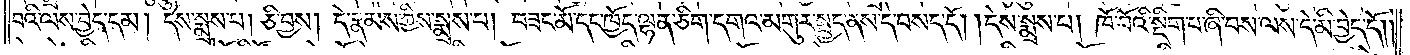བའི་ལས་བྱེད་དམ། དེས་སྨྲས་པ། ཅི་བྱས། དེ་རྣམས་ཀྱིས་སྨྲས་པ། བཟང་མོ་དང་ཁྱོད་ལྷན་ཅིག་དགའ་མགུར་སྤྱད་ནས་དེ་བསད་དོ། །དེས་སྨྲས་པ། ཁོ་བོའི་སྡིག་པ་ཞི་བས་ལས་དེ་མི་བྱེད་དོ། །
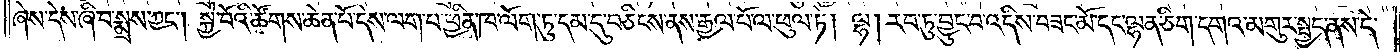ཞེས་དེས་ཞི་བ་སྨྲས་ཀྱང༌། སྐྱེ་བོའི་ཚོགས་ཆེན་པོ་དེས་ལག་པ་ཕྱིན་ཁ་ལོག་ཏུ་དམ་དུ་བཅིངས་ནས་རྒྱལ་པོ་ལ་ཕུལ་ཏེ། ལྷ། རབ་ཏུ་བྱུང་བ་འདིས་བཟང་མོ་དང་ལྷན་ཅིག་དགའ་མགུར་སྤྱད་ནས་དེ་
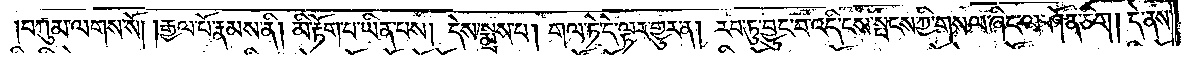བཀུམ་ལགས་སོ། །རྒྱལ་པོ་རྣམས་ནི། མི་རྟོག་པ་ཡིན་པས། དེས་སྨྲས་པ། གལ་ཏེ་དེ་ལྟར་གྱུར་ན། རབ་ཏུ་བྱུང་བ་འདི་ངས་སྤངས་ཀྱི་གསལ་ཞིང་ལ་ཤོན་ཅིག། དེ་ནས་
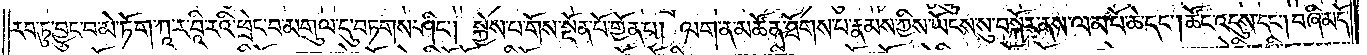རབ་ཏུ་བྱུང་བ་མེ་ཏོག་ཀཱ་ར་བཱི་རའི་ཕྲེང་བ་མགུལ་དུ་བཏགས་ཤིང༌། སྐྱེས་པ་གོས་སྔོན་པོ་གྱོན་པ། ལག་ན་མཚོན་ཐོགས་པ་རྣམས་ཀྱིས་ཡོངས་སུ་བསྐོར་ནས་ལམ་པོ་ཆེ་དང༌། ཚོང་འདུས་དང༌། བཞི་མདོ་
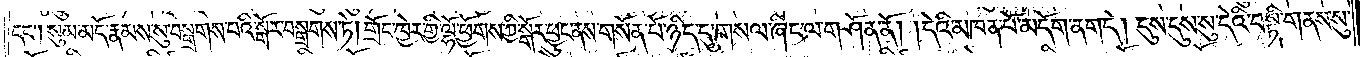དང༌། སུམ་མདོ་རྣམས་སུ་བསྒྲགས་པའི་སྒོར་བསྒྲགས་ཏེ། གྲོང་ཁྱེར་གྱི་ལྷོ་ཕྱོགས་ཀྱི་སྒོར་ཕྱུང་ནས་གསོན་པོ་ཉིད་དུ་གསལ་ཞིང་ལ་གཤོན་ནོ། །དེའི་མཁན་པོ་མདོག་ནག་དེ། དུས་དུས་སུ་དེའི་བསྟི་གནས་སུ་
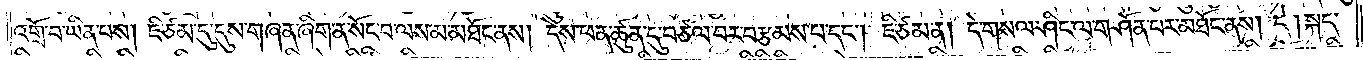འགྲོ་བ་ཡིན་པས། ཇི་ཙམ་དུ་དུས་གཞན་ཞིག་ན་སོང་བ་ལས་མ་མཐོང་ནས། དེས་ཕན་ཚུན་དུ་བཙལ་བར་བརྩམས་པ་དང༌། ཇི་ཙམ་ན། དེ་གསལ་ཞིང་ལ་གཤོན་པར་མཐོང་ནས། དེ། སྐད་
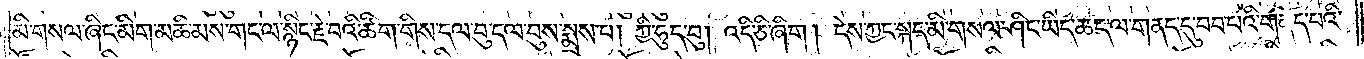མི་གསལ་ཞིང་མིག་མཆི་མས་གང་ལ་སྙིང་རྗེ་བའི་ཚིག་གིས་དལ་བུ་དལ་བུས་སྨྲས་པ། ཀྱི་ཧུད་བུ། འདི་ཅི་ཞིག། དེས་ཀྱང་སྐད་མི་གསལ་ཞིང་ཡིད་ཆད་ལ་གནད་དུ་བབ་པའི་གནོད་པའི་
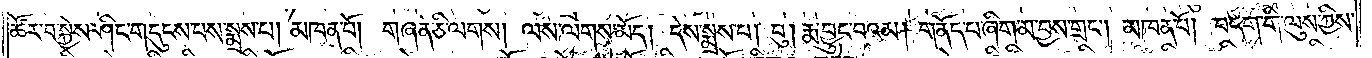ཚོར་བ་སྐྱེས་ཤིང་གདུངས་པས་སྨྲས་པ། མཁན་པོ། གཞན་ཅི་ལགས། ལས་ལགས་མོད། དེས་སྨྲས་པ། བུ། རྨ་བྱུང་བའམ། གནོད་པ་ཞིག་མ་བྱས་གྲང༌། མཁན་པོ། བདག་གི་ལུས་ཀྱིས་
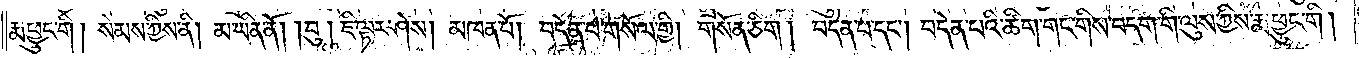རྨ་ཕྱུང་གི། སེམས་ཀྱིས་ནི། མ་ཡིན་ནོ། །བུ། ཇི་ལྟར་ཤེས། མཁན་པོ། བདེན་པ་གསོལ་གྱི། གསོན་ཅིག །བདེན་པ་དང༌། བདེན་པའི་ཚིག་གང་གིས་བདག་གི་ལུས་ཀྱིས་རྨ་ཕྱུང་གི།
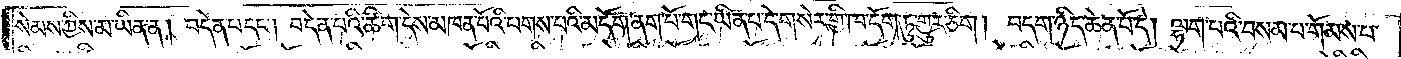སེམས་ཀྱིས་མ་ཡིན་ན། བདེན་པ་དང༌། བདེན་པའི་ཚིག་དེས་མཁན་པོའི་པགས་པའི་མདོག་ནག་པོ་གང་ཡིན་པ་དེ་གསེར་གྱི་ཁ་དོག་ཏུ་གྱུར་ཅིག །བདག་ཉིད་ཆེན་པོ་དེ། ལྷག་པའི་བསམ་པ་གོམས་པ་
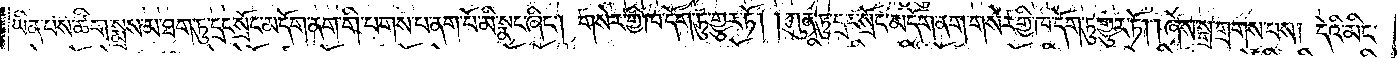ཡིན་པས་ཚིག་སྨྲས་མ་ཐག་ཏུ་དྲང་སྲོང་མདོག་ནག་གི་པགས་པ་ནག་པོ་མི་སྣང་ཞིང༌། གསེར་གྱི་ཁ་དོག་ཏུ་གྱུར་ཏོ། །ཀུན་ཏུ་དྲང་སྲོང་མདོག་ནག་གསེར་གྱི་ཁ་དོག་ཏུ་གྱུར་ཏོ། །ཞེས་སྒྲ་གྲགས་པས། དེའི་མིང་
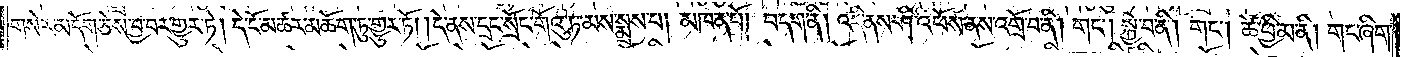གསེར་མདོག་ཅེས་བྱ་བར་གྱུར་ཏོ། །དེ་ངོ་མཚར་མཆོག་ཏུ་གྱུར་ཏོ། །དེ་ནས་དྲང་སྲོང་གོའུ་ཏ་མས་སྨྲས་པ། མཁན་པོ། བདག་ནི། འདི་ནས་ཤི་འཕོས་ནས་འགྲོ་བ་ནི། གང༌། སྐྱེ་བ་ནི། གང༌། ཚེ་ཕྱི་མ་ནི། གང་ཞིག་
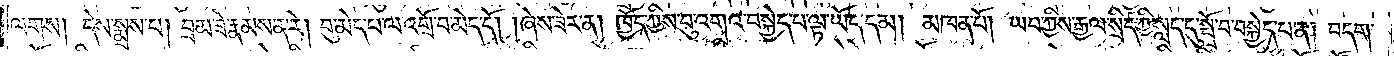ལགས། དེས་སྨྲས་པ། བྲམ་ཟེ་རྣམས་ན་རེ། བུ་མེད་པ་ལ་འགྲོ་བ་མེད་དོ། །ཞེས་ཟེར་ན། ཁྱོད་ཀྱིས་བུ་འགའ་བསྐྱེད་པ་ལྟ་ཡོད་དམ། མཁན་པོ། ཡབ་ཀྱིས་རྒྱལ་སྲིད་ཀྱི་སླད་དུ་སྤྲོ་བ་བསྐྱེད་པ་ན། བདག་
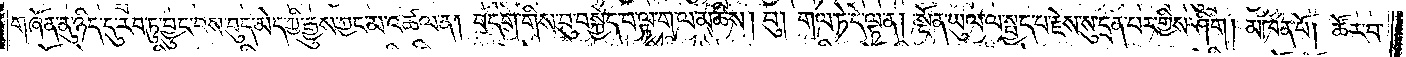གཞོན་ནུ་ཉིད་དུ་རབ་ཏུ་བྱུང་བས་བུད་མེད་ཀྱི་རྒྱུས་ཀྱང་མ་འཚལ་ན། བདག་གིས་བུ་བསྐྱེད་པ་ལྟ་ག་ལ་མཆིས། བུ། གལ་ཏེ་དེ་ལྟ་ན། སྔོན་ཡུལ་ལ་སྤྱད་པ་རྗེ་སུ་དྲན་པར་གྱིས་ཤིག །མཁན་པོ། ཚོར་བ་
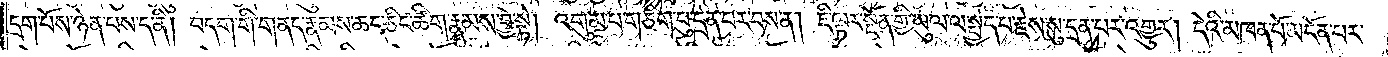དྲག་པོས་ཉེན་པས་ད་ནི། བདག་གི་གནད་རྣམས་ཆད་ཅིང་ཚིག་རྣམས་བྱེ་སྟེ། འགུམ་པ་གཅིག་པུ་དྲན་པར་བས་ན། ཇི་ལྟར་སྔོན་གྱི་ཡུལ་ལ་སྤྱད་པ་རྗེས་སུ་དྲན་པར་འགྱུར། དེའི་མཁན་པོ་མངོན་པར་
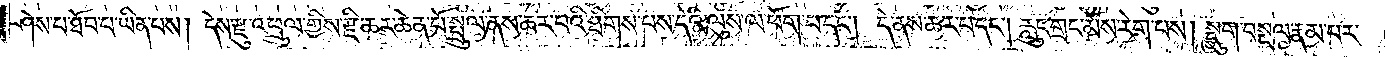ཤེས་པ་ཐོབ་པ་ཡིན་པས། དེས་རྫུ་འཕྲུལ་གྱིས་རྫི་ཆར་ཆེན་པོ་སྤྲུལ་ནས་ཆར་པའི་ཐིགས་པས་དེའི་ལུས་ལ་ཕོག་པ་དང༌། དེ་ནས་ཆར་པ་དང༌། རླུང་གྲང་མོས་རེག་པས། སྡུག་བསྔལ་རྣམ་པར་
